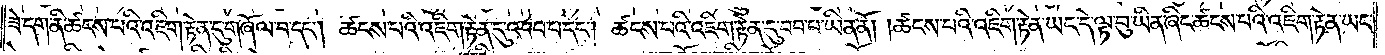ཟེ་དག་ནི་ཚངས་པའི་འཇིག་རྟེན་དུ་གཞོལ་བ་དང༌། ཚངས་པའི་འཇིག་རྟེན་དུ་འབབ་པ་དང༌། ཚངས་པའི་འཇིག་རྟེན་དུ་བབ་པ་ཡིན་ནོ། །ཚངས་པའི་འཇིག་རྟེན་ཡང་དེ་ལྟ་བུ་ཡིན་ཞིང་ཚངས་པའི་འཇིག་རྟེན་ཡང་
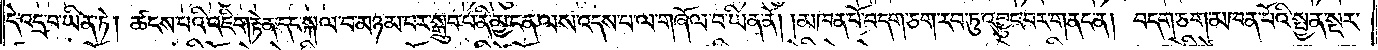དེ་འདྲ་བ་ཡིན་ཏེ། ཚངས་པའི་འཇིག་རྟེན་དང་སྐལ་བ་མཉམ་པར་སྒྲུབ་པ་ནི་མྱ་ངན་ལས་འདས་པ་ལ་གཞོལ་བ་ཡིན་ནོ། །མཁན་པོ་བདག་ཅག་རབ་ཏུ་འབྱུང་བར་གནང་ན། བདག་ཅག་མཁན་པོའི་སྤྱན་སྔར་
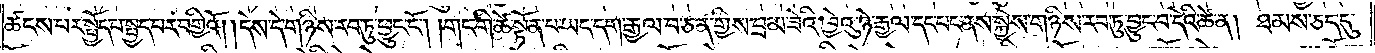ཚངས་པར་སྤྱོད་པ་སྤྱད་པར་བགྱིའོ། །དེས་དེ་གཉིས་རབ་ཏུ་ཕྱུང་ངོ༌། །གང་གི་ཚེ་སྟོན་པ་ཡང་དག་རྒྱལ་བ་ཅན་གྱིས་བྲམ་ཟེའི་ཁྱེའུ་ཉེ་རྒྱལ་དང་པང་ནས་སྐྱེས་གཉིས་རབ་ཏུ་བྱུང་བ་དེའི་ཚེ་ན། ཐམས་ཅད་དུ་
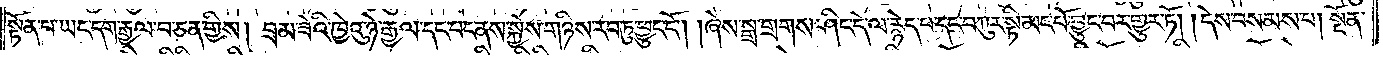སྟོན་པ་ཡང་དག་རྒྱལ་བ་ཅན་གྱིས། བྲམ་ཟེའི་ཁྱེའུ་ཉེ་རྒྱལ་དང་པང་ནས་སྐྱེས་གཉིས་རབ་ཏུ་ཕྱུང་ངོ༌། །ཞེས་སྒྲ་གྲགས་ཤིང་དེ་ལ་རྙེད་པ་དང་བཀུར་སྟི་མང་པོ་བྱུང་བར་གྱུར་ཏོ། །དེས་བསམས་པ། སྔོན་
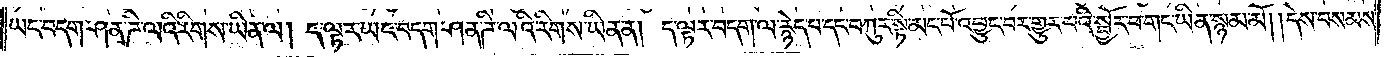ཡང་བདག་ཤན་ཌི་ལའི་རིགས་ཡིན་ལ། ད་ལྟར་ཡང་བདག་ཤན་ཌི་ལའི་རིགས་ཡིན་ན། ད་ལྟར་བདག་ལ་རྙེད་པ་དང་བཀུར་སྟི་མང་པོ་འབྱུང་བར་གྱུར་པའི་སྦྱོར་བ་གང་ཡིན་སྙམ་མོ། །དེས་བསམས་
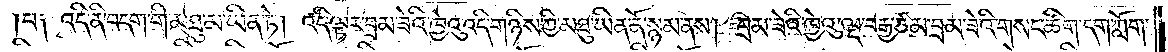།པ༑ འདི་ནི་བདག་གི་མཐུ་མ་ཡིན་ཏེ། འདི་ལྟར་བྲམ་ཟེའི་ཁྱེའུ་འདི་གཉིས་ཀྱི་མཐུ་ཡིན་ནོ་སྙམ་ནས། བྲམ་ཟེའི་ཁྱེའུ་ལྔ་བརྒྱ་ཙམ་བྲམ་ཟེའི་གསང་ཚིག་དག་ཀློག་
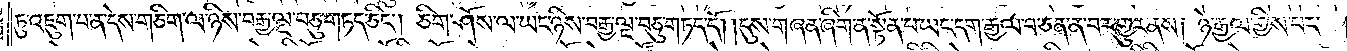ཏུ་འཇུག་པ་ན་དེས་གཅིག་ལ་ཉིས་བརྒྱ་ལྔ་བཅུ་གཏད་ཅིང༌། ཅིག་ཤོས་ལ་ཡང་ཉིས་བརྒྱ་ལྔ་བཅུ་གཏད་དོ། །དུས་གཞན་ཞིག་ན་སྟོན་པ་ཡང་དག་རྒྱལ་བ་ཅན་ན་བར་གྱུར་ནས། ཉེ་རྒྱལ་གྱིས་པང་
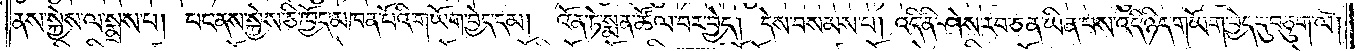ནས་སྐྱེས་ལ་སྨྲས་པ། པང་ནས་སྐྱེས་ཅི་ཁྱོད་མཁན་པོའི་གཡོག་བྱེད་དམ། འོན་ཏེ་སྨན་ཚོལ་བར་བྱེད། དེས་བསམས་པ། འདི་ནི་ཤེས་རབ་ཅན་ཡིན་པས་འདི་ཉིད་གཡོག་བྱེད་དུ་བཅུག་ལ།
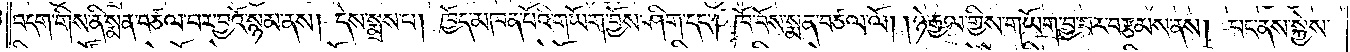བདག་གིས་ནི་སྨན་བཙལ་བར་བྱའོ་སྙམ་ནས། དེས་སྨྲས་པ། ཁྱོད་མཁན་པོའི་གཡོག་བྱོས་ཤིག་དང༌། ཁོ་བོས་སྨན་བཙལ་ལོ། །ཉེ་རྒྱལ་གྱིས་གཡོག་བྱ་བར་བརྩམས་ནས། པང་ནས་སྐྱེས་
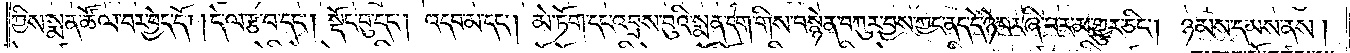ཀྱིས་སྨན་ཚོལ་བར་བྱེད་དོ། །དེ་ལ་རྩ་བ་དང༌། སྡོང་བུ་དང༌། འདབ་མ་དང༌། མེ་ཏོག་དང་འབྲས་བུའི་སྨན་དག་གིས་བསྙེན་བཀུར་བྱས་ཀྱང་ནད་དེ་ཉེ་བར་ཞི་བར་མ་གྱུར་ཅིང༌། ཉམས་དམས་ནས།
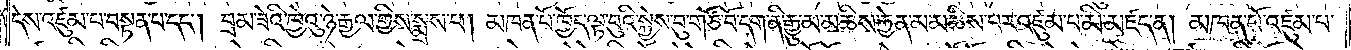དེས་འཛུམ་པ་བསྟན་པ་དང༌། བྲམ་ཟེའི་ཁྱེའུ་ཉེ་རྒྱལ་གྱིས་སྨྲས་པ། མཁན་པོ་ཁྱོད་ལྟ་བུའི་སྐྱེས་བུ་གཙོ་བོ་དག་ནི་རྒྱུ་མ་མཆིས་རྐྱེན་མ་མཆིས་པར་འཛུམ་པ་མི་མཛད་ན། མཁན་པོ་འཛུམ་པ་
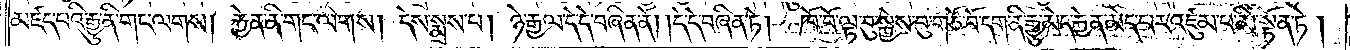མཛད་པའི་རྒྱུ་ནི་གང་ལགས། རྐྱེན་ནི་གང་ལགས། དེས་སྨྲས་པ། ཉེ་རྒྱལ་དེ་དེ་བཞིན་ནོ། །དེ་དེ་བཞིན་ཏེ། ཁོ་བོ་ལྟ་བུ་སྐྱེས་བུ་གཙོ་བོ་དག་ནི་རྒྱུ་མེད་རྐྱེན་མེད་པར་འཛུམ་པ་མི་སྟོན་ཏེ།
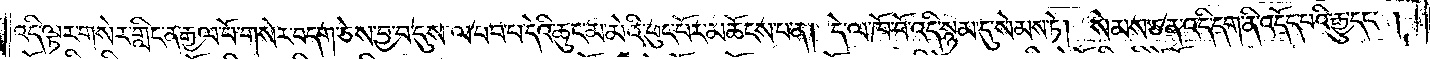འདི་ལྟར་གསེར་གླིང་ན་རྒྱལ་པོ་གསེར་བདག་ཅེས་བྱ་བ་དུས་ལ་བབ་པ་དེའི་ཆུང་མ་མེའི་ཕུང་པོར་མཆོངས་པ་ན། དེ་ལ་ཁོ་བོ་འདི་སྙམ་དུ་སེམས་ཏེ། སེམས་ཅན་འདི་དག་ནི་འདོད་པའི་རྒྱུ་དང༌།
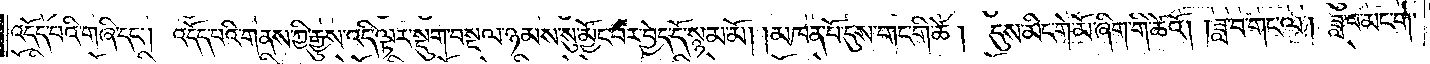འདོད་པའི་གཞི་དང༌། འདོད་པའི་གནས་ཀྱི་རྒྱུས་འདི་ལྟར་སྡུག་བསྔལ་ཉམས་སུ་མྱོང་བར་བྱེད་དོ་སྙམ་མོ། །མཁན་པོ་དུས་གང་གི་ཚེ། དུས་མིང་གེ་མོ་ཞིག་གི་ཆེའོ། །ཟླ་བ་གང་ལ། ཟླ་བ་མང་གེ་
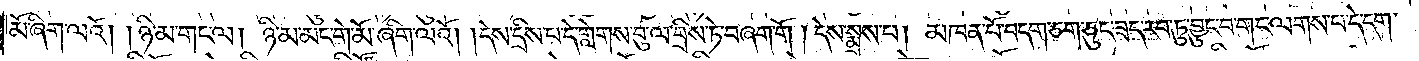མོ་ཞིག་ལའོ། །ཉི་མ་གང་ལ། ཉི་མ་མང་གེ་མོ་ཞིག་ལའོ། །དེས་དྲིས་པ་དེ་གླེགས་བུ་ལ་བྲིས་ཏེ་བཞག་གོ །དེས་སྨྲས་པ། མཁན་པོ་བདག་ཅག་ཅུང་ཟད་རབ་ཏུ་བྱུང་བ་གང་ལགས་པ་དེ་དག་
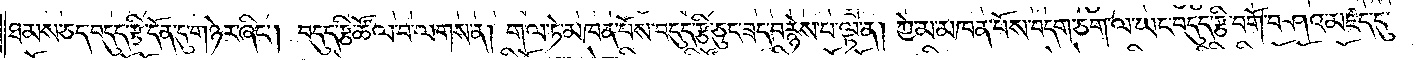ཐམས་ཅད་བདུད་རྩི་དོན་དུ་གཉེར་ཞིང༌། བདུད་རྩི་ཚོལ་བ་ལགས་ན། གལ་ཏེ་མཁན་པོས་བདུད་རྩི་ཅུང་ཟད་བརྙེས་པ་ལྟ་ན། ཀྱེ་མ་མཁན་པོས་བདག་ཅག་ལ་ཡང་བདུད་རྩི་བགོ་བཤའ་མཛད་དུ་
